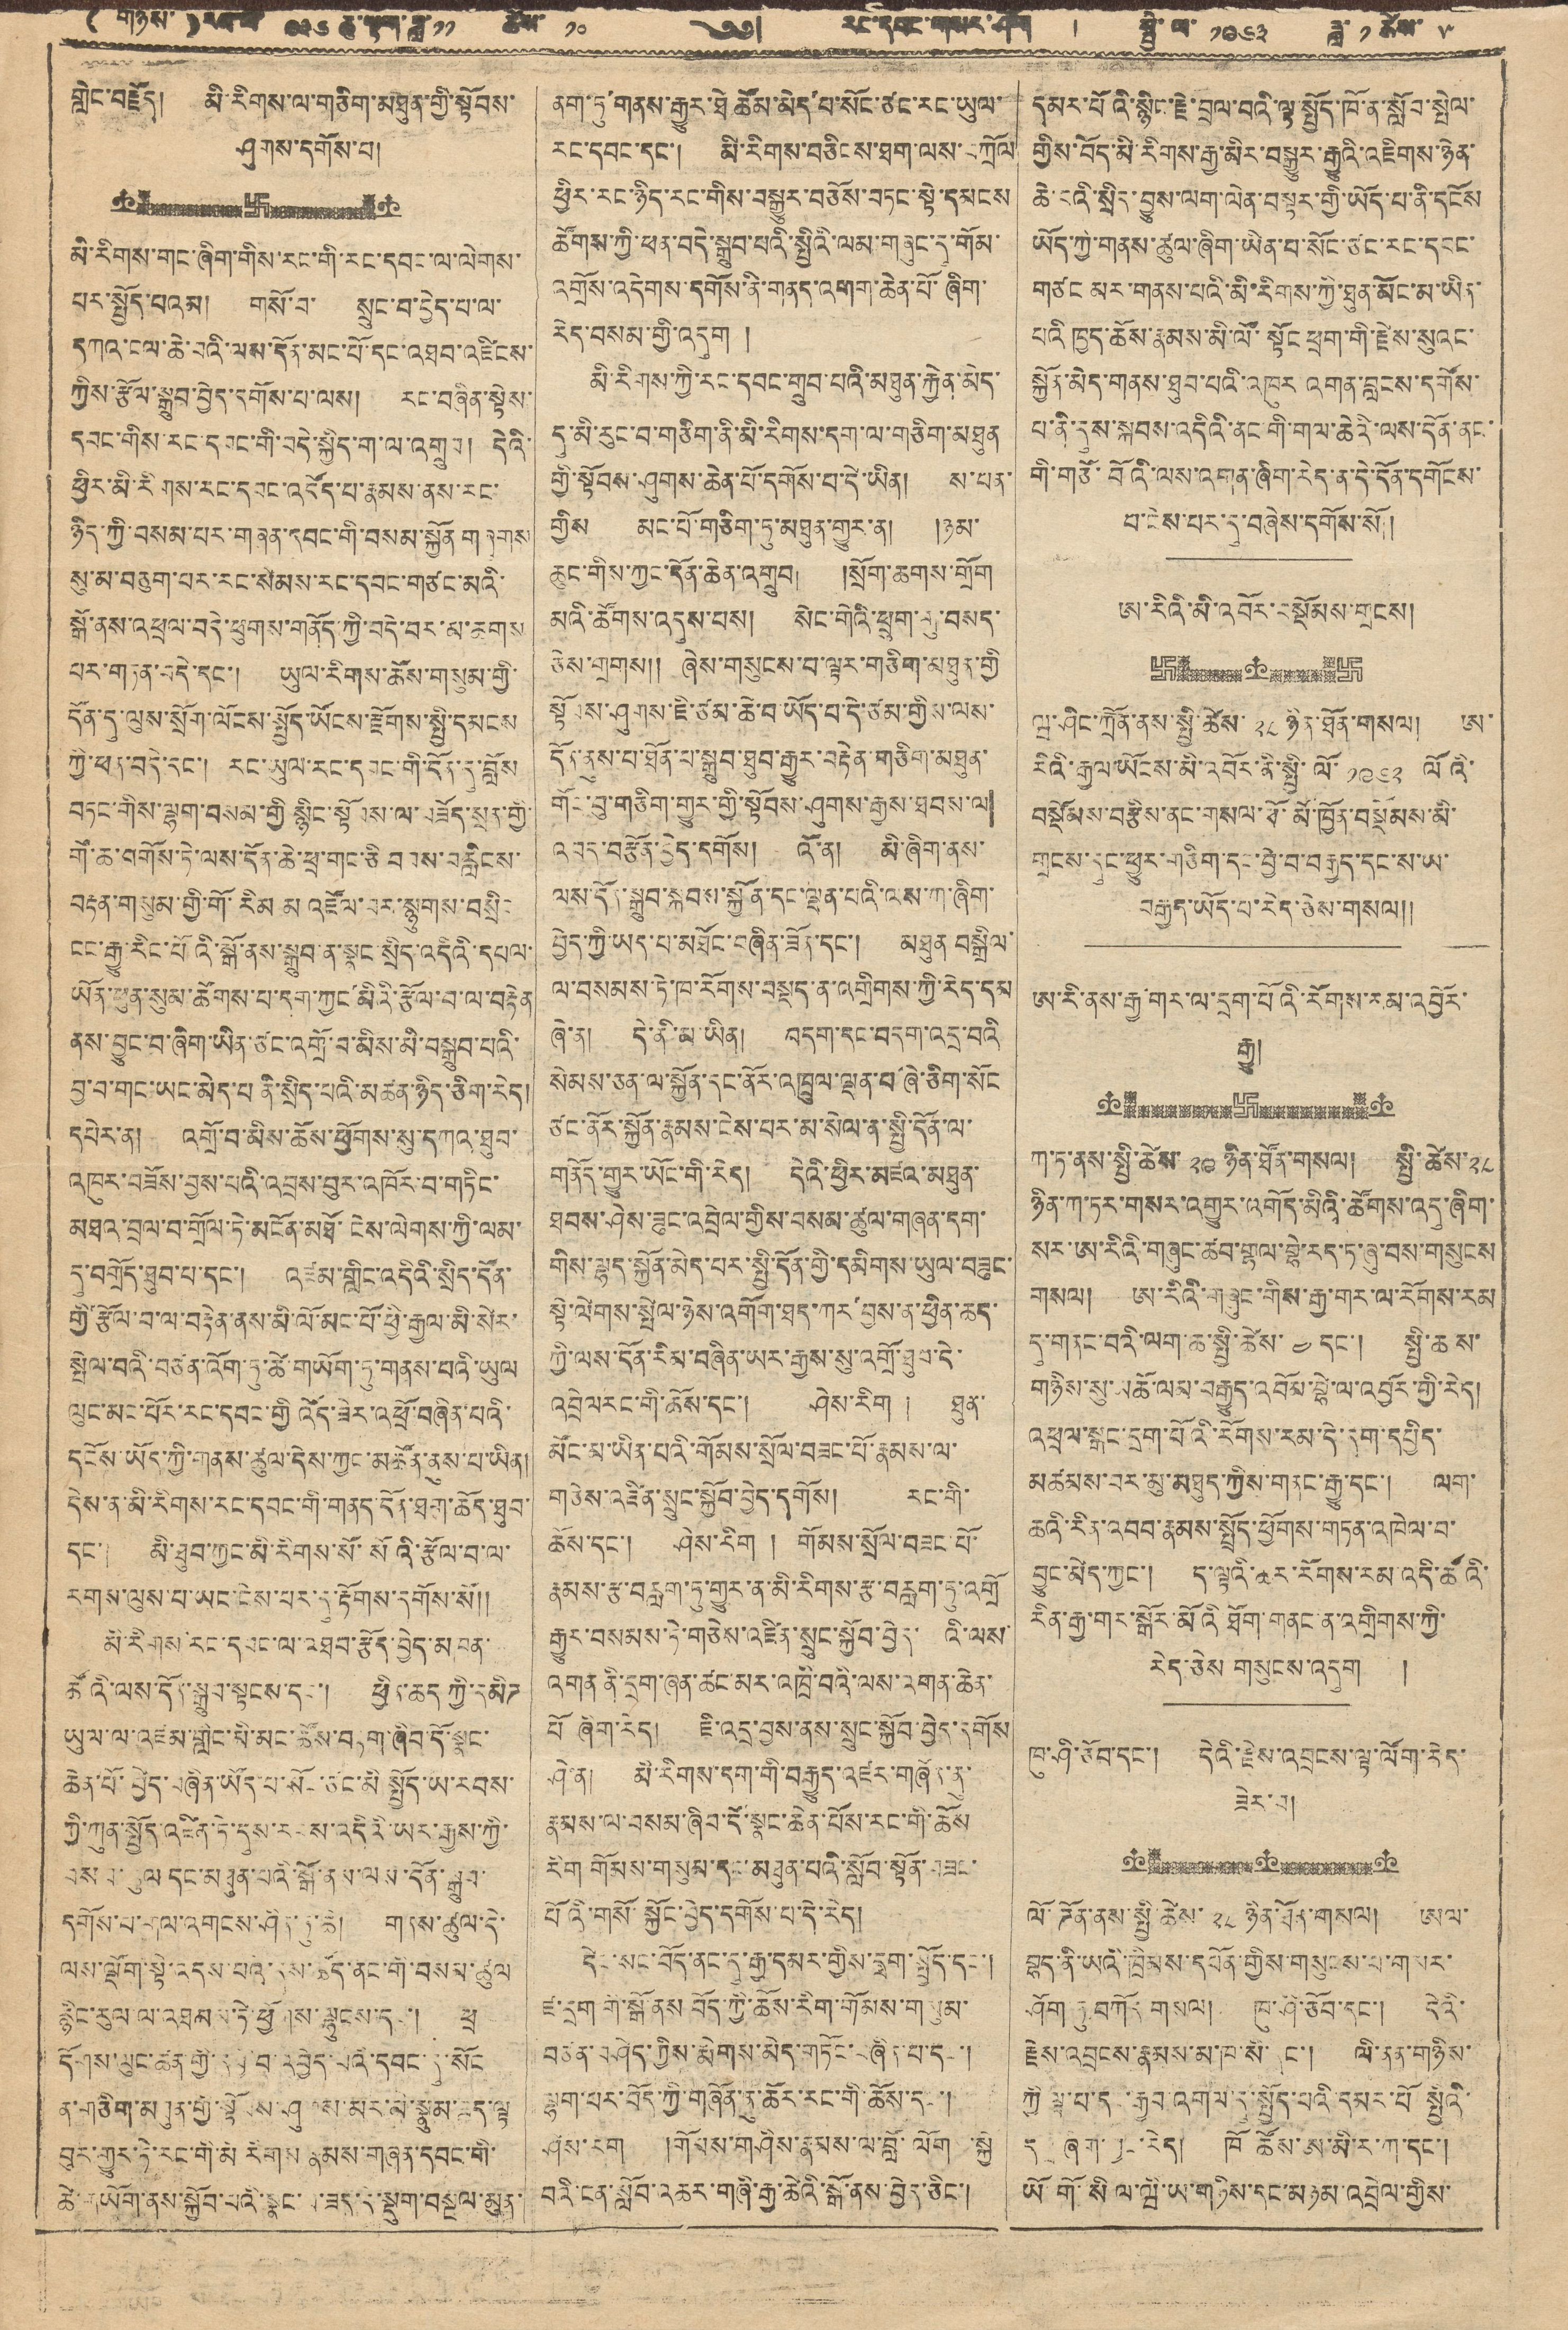(གཉིས་) རབ་ལོ  ༩༣༦ ཆུ་སྟག་ཟླ་༡༡ ཚེས་ ༡༠ ༄༅། རང་དབང་གསར་ཤོག ། སྤྱི་ལོ་ ༡༩༦༣ ཟླ་ ༡ ཚེས་ ༥
གླིང་བརྗོད། མི་རིགས་ལ་གཅིག་མཐུན་གྱི་སྟོབས་
ཤུགས་དགོས་པ།
མི་རིགས་གང་ཞིག་གིས་རང་གི་རང་དབང་ལ་ལེགས་
པར་སྤྱོད་པའམ། གསོ་བ་ སྲུང་བ་བྱེད་པ་ལ་
དཀའ་ངལ་ཆེ་བའི་ལས་དོན་མང་པོ་དང་འཐབ་འཛིངས་
ཀྱིས་རྩོལ་སྒྲུབ་བྱེད་དགོས་པ་ལས། རང་བཞིན་སྟེས་
དབང་གིས་རང་དབང་གི་བདེ་སྐྱིད་ག་ལ་འགྲུབ། དེའི་
ཕྱིར་མི་རིགས་རང་དབང་འདོད་པ་རྣམས་ནས་རང་
ཉིད་ཀྱི་བསམ་པར་གཞན་དབང་གི་བསམ་སྐྱོན གཞུགས
སུ་མ་བཅུག་པར་རང་སེམས་རང་དབང་གཙང་མའི་
སྒོ་ནས་འཕྲལ་བདེ་ཕུགས་གནོད་ཀྱི་བདེ་བར་མ་ཆགས
པར་གཏན་བདེ་དང་། ཡུལ་རིགས་ཆོས་གསུམ་གྱི་
དོན་དུ་ལུས་སྲོག་ལོངས་སྤྱོད་ཡོངས་རྫོགས་སྤྱི་དམངས
ཀྱི་ཕན་བདེ་དང་། རང་ཡུལ་རང་དབང་གི་དོན་དུ་བློས
བཏང་གིས་ལྷག་བསམ་གྱི སྙིང་སྟོབས་ལ་བཟོད་སྲན་གྱི་
གོ་ཆ་བགོས་ཏེ་ལས་དོན་ཆེ་ཕྲ་གང་ཅི བབས་བརླིངས་
བརྟན་གསུམ་གྱི་གོ་རིམ མ འཛོལ་བར་སྙུགས་བསྲིང
ངང་རྒྱུ་རིང་པོའི་སྒོ་ནས་སྒྲུབ་ན་སྣང་སྲིད་འདིའི་དཔལ་
ཡོན་ཕུན་སུམ་ཚོགས་པ་དག་ཀྱང་མིའི་རྩོལ་བ་ལ་བརྟེན
ནས་བྱུང་བ་ཞིག་ཡིན་ཙང་འགྲོ་བ་མིས་མི་བསྒྲུབ་པའི་
བྱ་བ་གང་ཡང་མེད་པ ནི་སྲིད་པའི་མཚན་ཉིད་ཅིག་རེད།
དཔེར་ན། འགྲོ་བ་མིས་ཆོས་ཕྱོགས་སུ་དཀའ་ཐུབ་
འཁུར་བཟོས་བྱས་པའི་འབྲས་བུར་འཁོར་བ་གཏིང་
མཐའ་བྲལ་བ་གྲོལ་ཏེ་མངོན་མཐོ་ངེས་ལེགས་ཀྱི་ལམ་
དུ་བགྲོད་ཐུབ་པ་དང་། འཛམ་གླིང་འདིའི་སྲིད་དོན་
གྱི་རྩོལ་བ་ལ་བརྟེན་ནས་མི་ལོ་མང་པོ་ཕྱི་རྒྱལ་མི་སེར་
སྤེལ་བའི་བཙན་འོག་ཏུ་ཚེ་གཡོག་ཏུ་གནས་པའི་ཡུལ
ལུང་མང་པོར་རང་དབང་གྱི འོད་ཟེར་འཕྲོ་བཞིན་པའི་
དངོས་ཡོད་ཀྱི་གནས་ཚུལ་དེས་ཀྱང་མཚོན་ནུས་པ་ཡིན།
དེས་ན་མི་རིགས་རང་དབང་གི་གནད་དོན་ཐག་ཆོད་ཐུབ་
དང་། མི་ཐུབ་ཀྱང་མི་རིགས་སོ་སོའི་རྩོལ་བ་ལ་
རགས་ལུས་པ་ཡང་ངེས་པར་དུ་རྟོགས་དགོས་སོ།།
མི་རིགས་རང་དབང་ལ་འཐབ་རྩོད་བྱེད་མཁན་
ཚོའི་ལས་དོན་སྒྲུབ་སྟངས་དང་། ཕྱིན་ཆད ཀྱི་དམིཊ
ཡུལ་ལ་འཛམ་གླིང་མི་མང་ཚོས་བཏག་ཞིབ་དོ་སྣང་
ཆེན་པོ་བྱེད་བཞིན་ཡོད་པ་སོང་ཙང་མི སྤྱོད་ཡ་རབས་
ཀྱི་ཀུན་སྤྱོད་འཛིན་ཏེ་དུས་རབས་འདིའི་ཡར་རྒྱས་ཀྱི་
བསམ་ཚུལ་དང་མཐུན་པའི་སྒོ་ནས་ལས་དོན་སྒྲུབ་
དགོས་པ་གལ་འགངས་ཤིན་ཏུ་ཆེ། གནས་ཚུལ་དེ་
ལས་ལྡོག་སྟེ་འདས་པའི་དུས་ཚོད་ནང་གི་བསམ་ཚུལ
རྙིང་རུལ་ལ་འཐམས་ཏེ་ཕྱོགས་ལྷུངས་དང་། ཕྲ
དགོས་ལུང་ཚན་གྱི་དབྱེ་བ་འབྱེད་པའི་དབང་དུ་སོང
ན་གཅིག་མཐུན་གྱི་སྟོབས་ཤུགས་མར་མི་སྣུམ་ཟད་ལྟ
བུར་གྱུར་ཏེ་རང་གི་མི རིགས རྣམས་གཞན་དབང་གི་
ཚེ་གཡོག་ནས་སྐྱོབ་པའི་སྣང་བ་ཟད་དེ་སྡུག་བསྔལ་མུན་
ནག་ཏུ་གནས་རྒྱུར་ཐེ ཚོམ་མེད་པ་སོང་ཙང་རང་ཡུལ་
རང་དབང་དང་། མི་རིགས་བཅིངས་ཐག་ལས་བཀྲོལ་
ཕྱིར་རང་ཉིད་རང་གིས་བསྒྱུར་བཅོས་བཏང་སྟེ་དམངས
ཚོགས་ཀྱི་ཕན་བདེ་སྒྲུབ་པའི་སྤྱིའི་ལམ་གཞུང་དུ་གོམ་
འགྲོས་འདེགས་དགོས་ནི་གནད་འགག་ཆེན་པོ་ཞིག་
རེད་བསམ་གྱི་འདུག །
མི་རིགས་ཀྱི་རང་དབང་གྲུབ་པའི་མཐུན་རྐྱེན་མེད་
དུ་མི་རུང་བ་གཅིག་ནི་མི་རིགས་དག་ལ་གཅིག་མཐུན
གྱི་སྟོབས་ཤུགས་ཆེན་པོ་དགོས་བ་དེ་ཡིན། ས་པན་
གྱིས མང་པོ་གཅིག་ཏུ་མཐུན་གྱུར་ན། །ཉམ་
ཆུང་གིས་ཀྱང་དོན་ཆེན་འགྲུབ། །སྲོག་ཆགས་གྲོག
མའི་ཚོགས་འདུས་པས། སེང་གེའི་ཕྲུག་གུ་བསད་
ཅེས་གྲགས།། ཞེས་གསུངས་བ་ལྟར་གཅིག་མཐུན་གྱི
སྟོབས་ཤུགས་ཇི་ཙམ་ཆེ་བ་ཡོད་བ་དེ་ཙམ་གྱིས་ལས་
དོན་ནུས་པ་ཐོན་པ་སྒྲུབ་ཐུབ་རྒྱུར་བརྟེན་གཅིག་མཐུན་
གོང་བུ་གཅིག་གྱུར་གྱི་སྟོབས་ཤུགས་རྒྱས་ཐབས་ལ་
འབད་བརྩོན་བྱེད་དགོས། འོ་ན། མི་ཞིག་ནས་
འས་དོན་སྒྲུབ་སྐབས་སྐྱོན་དང་ལྡན་པའི་ལས་ཀ་ཞིག་
བྱེད་ཀྱི་ཡོད་པ་མཐོང་བཞིན་ཟོན་དང་། མཐུན བསྒྲིལ་
ལ་བསམས་ཏེ་ཁ་རོགས་བསྡད་ན་འགྲིགས་ཀྱི་རེད་དམ
ཞེ་ན། དེ་ནི་མ་ཡིན། བདག་དང་བདག་འདྲ་བའི
སེམས་ཅན་ལ་སྐྱོན་དང་ནོར་འཁྲུལ་ལྡན་པ་ཞི་ཅིག་སོང
ཙང་ནོར་སྐྱོན་རྣམས་ངེས་པར་མ་སེལ་ན་སྤྱི་དོན་ལ་
གནོད་གྱུར་ཡོང་གི་རེད། དེའི་ཕྱིར་མཛའ་མཐུན་
ཐབས་ཤེས་ཟུང་འབྲེལ་གྱིས་བསམ་ཚུལ་གཞན་དག་
གིས་ལྷད་སྐྱོན་མེད་པར་སྤྱི་དོན་གྱི་དམིགས་ཡུལ་བཟུང་
སྟེ་ལེགས་སྤེལ་ཉེས་འགོག་ཐད་ཀར་བྱས་ན་ཕྱིན་ཆད་
ཀྱི་ལས་དོན་རིམ་བཞིན་ཡར་རྒྱས་སུ་འགྲོ་ཐུབ་དེ་
འབྲེལརང་གི་ཆོས་དང་། ཤེས་རིག ། ཐུན་
མོང་མ་ཡིན་པའི་གོམས་སྲོལ་བཟང་པོ་རྣམས་ལ་
གཅེས་འཛིན་སྲུང་སྐྱོབ་བྱེད་དགོས། རང་གི་
ཆོས་དང་། ཤེས་རིག ། གོམས་སྲོལ་བཟང་པོ་
རྣམས་རྩ་བརླག་ཏུ་གྱུར་ན་མི་རིགས་རྩ་བརླག་ཏུ་འགྲོ
རྒྱུར་བསམས་ཏེ་གཅེས་འཛིན་སྲུང་སྐྱོབ་བྱེད་པའི་ལས་
འགན ནི་དྲག་ཞན་ཚང་མར་འཁྲི་བའི་ལས་འགན་ཆེན་
པོ ཞིག་རེད། ཇི་འདྲ་བྱས་ནས་སྲུང་སྐྱོབ་བྱེད་དགོས
ཤེ་ན། མི་རིགས་དག་གི་བརྒྱུད་འཛར་གཞོན་ནུ་
རྣམས་ལ་བསམ་ཞིབ་དོ་སྣང་ཆེན་པོས་རང་གི་ཆོས
རིག གོམས་གསུམ་དང་མཐུན་པའི་སློན་སྟོན་བཟང་
པོའི་གསོ་སྐྱོང་བྱེད་དགོས་པ་དེ་རེད།
དེང་སང་བོད་ནང་དུ་རྒྱ་དམར་གྱིས་དྲག་སྤྱོད་དང་།
ཛ་དྲག གི་སྒོ་ནས བོད་ཀྱི་ཆོས་རིག་གོམས་གསུམ་
བཙན་བཤེད་ཀྱིས་རྨེགས་མེད་གཏོང་བཞིན་པ་དང་།
ལྷག་པར་བོད་ཀྱི་གཞོན་ནུ་ཚོར་རང་གི་ཆོས་དང་།
ཤེས་རིག །གོམས་གཤིས་རྣམས་ལ་བློ་ལོགས་སྐྱེ
བའི་ངན་སློབ་འཆར་གཞི་རྒྱ་ཆེའི་སྒོ་ནས་བྱེད་ཅིང་།
དམར་པོའི་སྙིང་རྗེ་བྲལ་བའི་ལྟ་སྤྱོད་ཁོ་ན་སློབ་སྤེལ་
གྱིས་བོད་མི་རིགས་རྒྱ་མིར་བསྒྱུར་རྒྱུའི་འཇིགས་ཉེན་
ཆེ་བའི་སྲིད་བྱུས་ལག་ལེན་བསྟར་གྱི་ཡོད་པ་ནི་དངོས
ཡོད་ཀྱི་གནས་ཚུལ་ཞིག་ཡིན་པ་སོང་ཙང་རང་དབང་
གཙང མར་གནས་པའི་མི་རིགས་ཀྱི་ཐུན་མོང་མ་ཡིན་
པའི ཁྱད་ཆོས་རྣམས་མི་ལོ་སྟོང ཕྲག་གི་རྗེས་སུའང་
སྐྱོན་མེད་གནས་ཐུབ་པའི་འཁུར འགན་བླངས་དགོས་
པ་ནི་དུས་སྐབས་འདིའི་ནང་གི་གལ་ཆེའི་ལས་དོན་ནང་
གི་གཙོ་བོའི་ལས་འགན་ཞིག་རེད་ན་དེ་དོན་དགོངས་
པ་ངེས་པར་དུ་བཞེས་དགོས་སོ།།
ཨ་རིའི་མི་འབོར་བསྡོམས་གྲངས།
ཝ་ཤིང་ཀྲོན་ནས་སྤྱི་ཚེས་ ༢༨ ཉིན་ཐོན་གསལ། ཨ་
རིའི་རྒྱལ་ཡོངས་མི་འབོར་ནི་སྤྱི་ལོ་ ༡༩༦༢ ལོའི་
བསྡོམས་བརྩིས་ནང་གསལ་ཕོ་མོ་ཁྱོན་བསྡོམས་མི་
གྲངས་དུང་ཕྱུར་གཅིག་དང་བྱེ་བ་བརྒྱད་དང་ས་ཡ་
བརྒྱད་ཡོད་པ་རེད་ཅེས་གསལ།།
ཨ་རི་ནས་རྒྱ་གར་ལ་དྲག་པོའི་རོགས་རམ་འབྱོར་
རྒྱུ།
ཀ་ཏ་ནས་སྤྱི་ཚེས ༢༩ ཉིན་ཐོན་གསལ། སྤྱི་ཚེས་ ༢༨
ཉིན་ཀ་ཏར་གསར་འགྱུར་འགོད་མའི་ཚོགས་འདུ་ཞིག་
སར་ཨ་རིའི་གཞུང་ཚབ་གྷལ་བྷེ་རད་ཏ་ཞུ་བས་གསུངས་
གསལ། ཨ་རིའི་གཞུང་གིས་རྒྱ་གར་ལ་རོགས་རམ
དུ་གནང་བའི་ལག་ཆ་སྤྱི་ཚེས་ ༤ དང་། སྤྱི་ཆས་
གཉིས་སུ་མཚོ་ལམ་བརྒྱུད་འབོམ་བྷེ་ལ་འབྱོར་གྱི་རེད།
འཕྲལ་སྒང་དྲག་པོའི་རོགས་རམ་དེ་དག་དཔྱིད་
མཚམས་བར་མུ་མཐུད་ཀྱིས་གནང་རྒྱ་དང་། ལག་
ཆའི་རིན་འབབ་རྣམས་སྤྲོད་ཕྱོགས་གཏན་འཁེལ་བ་
བྱུང་མེད་ཀྱང་། ད་ལྟའི་ཆར་རོགས་རམ་འདི་ཚོའི་
རིན་རྒྱ་གར་སྒོར་མོའི་ཐོག་གནང་ན་འགྲིགས་ཀྱི་
རེད་ཅེས གསུངས་འདུག །
ཁུ་ཤི་ཅོབ་དང་། དེའི་རྗེས་འབྲངས་ལྟ་ལོག་རེད་
ཟེར་བ།
ལོ་ཌོན་ནས་སྤྱི་ཚེས་ ༢༨ ཉིན་ཐོན་གསལ། ཨལ་
བྷད་ནི་ཡའི་ཁྲིམས་དཔོན་གྱིས་གསུངས་པ་གསར་
ཤོག་ཏུ་བཀོད གསལ། ཁུ་ཤི་ཅོབ་དང་། དེའི་
རྗེས་འབྲངས་རྣམས་མ་ཁ་སི་དང་། ལི་ནན་གཉིས་
ཀྱི ལྟ་བ་དང་རྒྱབ་འགལ་དུ་སྤྱོད་པའི་དམར་པོ སྤྱིའི་
དགྲ་ཞིག་ཀྱང་རེད། ཁོ ཚོས་ཨ་མི་རི་ཀ་དང་།
ཡོ་གོ་སིལ་ཝི་ཡ་གཉིས་དང་མཉམ་འབྲེལ་གྱིས་
